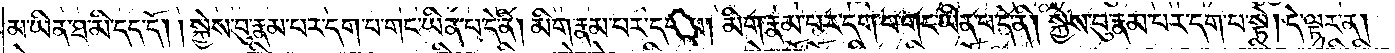མ་ཡིན་ཐ་མི་དད་དོ། །སྐྱེས་བུ་རྣམ་པར་དག་པ་གང་ཡིན་པ་དེ་ནི། མིག་རྣམ་པར་དག་པ། མིག་རྣམ་པར་དག་པ་གང་ཡིན་པ་དེ་ནི། སྐྱེས་བུ་རྣམ་པར་དག་པ་སྟེ། དེ་ལྟར་ན།
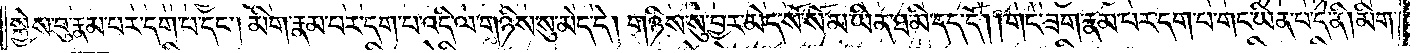སྐྱེས་བུ་རྣམ་པར་དག་པ་དང༌། མིག་རྣམ་པར་དག་པ་འདི་ལ་གཉིས་སུ་མེད་དེ། གཉིས་སུ་བྱར་མེད་སོ་སོ་མ་ཡིན་ཐ་མི་དད་དོ། །གང་ཟག་རྣམ་པར་དག་པ་གང་ཡིན་པ་དེ་ནི། མིག་
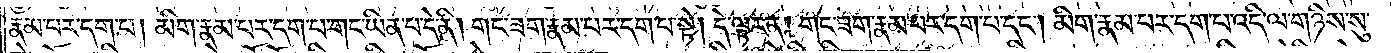རྣམ་པར་དག་པ། མིག་རྣམ་པར་དག་པ་གང་ཡིན་པ་དེ་ནི། གང་ཟག་རྣམ་པར་དག་པ་སྟེ། དེ་ལྟར་ན། གང་ཟག་རྣམ་པར་དག་པ་དང༌། མིག་རྣམ་པར་དག་པ་འདི་ལ་གཉིས་སུ་
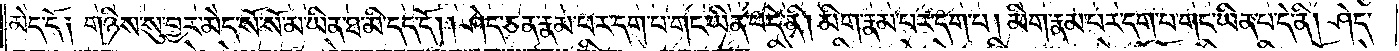མེད་དེ༑ གཉིས་སུ་བྱར་མེད་སོ་སོ་མ་ཡིན་ཐ་མི་དད་དོ། །ཤེད་ཅན་རྣམ་པར་དག་པ་གང་ཡིན་པ་དེ་ནི། མིག་རྣམ་པར་དག་པ། མིག་རྣམ་པར་དག་པ་གང་ཡིན་པ་དེ་ནི། ཤེད་
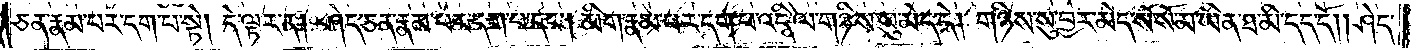ཅན་རྣམ་པར་དག་པ་སྟེ། དེ་ལྟར་ན། ཤེད་ཅན་རྣམ་པར་དག་པ་དང༌། མིག་རྣམ་པར་དག་པ་འདི་ལ་གཉིས་སུ་མེད་དེ། གཉིས་སུ་བྱར་མེད་སོ་སོ་མ་ཡིན་ཐ་མི་དད་དོ། །ཤེད་
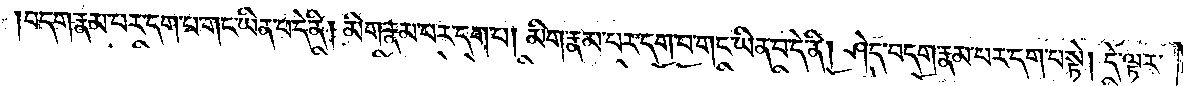བདག་རྣམ་པར་དག་པ་གང་ཡིན་པ་དེ་ནི། མིག་རྣམ་པར་དག་པ། མིག་རྣམ་པར་དག་པ་གང་ཡིན་པ་དེ་ནི། ཤེད་བདག་རྣམ་པར་དག་པ་སྟེ། དེ་ལྟར་
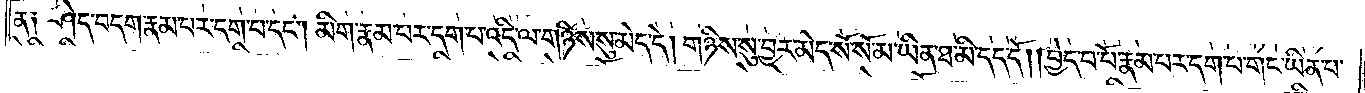ན༑ ཤེད་བདག་རྣམ་པར་དག་པ་དང༌། མིག་རྣམ་པར་དག་པ་འདི་ལ་གཉིས་སུ་མེད་དེ། གཉིས་སུ་བྱར་མེད་སོ་སོ་མ་ཡིན་ཐ་མི་དད་དོ། །བྱེད་བ་པོ་རྣམ་པར་དག་པ་གང་ཡིན་པ་
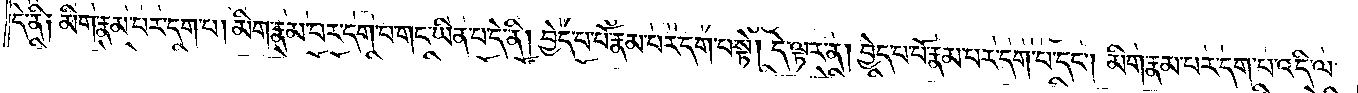དེ་ནི༑ མིག་རྣམ་པར་དག་པ། མིག་རྣམ་པར་དག་པ་གང་ཡིན་པ་དེ་ནི། བྱེད་པ་པོ་རྣམ་པར་དག་པ་སྟེ། དེ་ལྟར་ན། བྱེད་པ་པོ་རྣམ་པར་དག་པ་དང༌། མིག་རྣམ་པར་དག་པ་འདི་ལ་
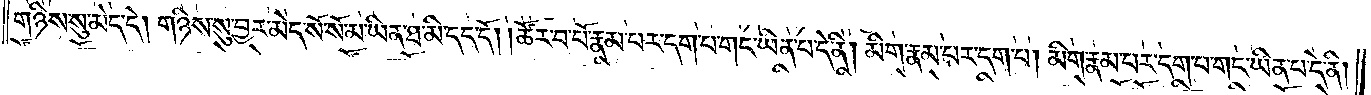གཉིས་སུ་མེད་དེ། གཉིས་སུ་བྱར་མེད་སོ་སོ་མ་ཡིན་ཐ་མི་དད་དོ། །ཚོར་བ་པོ་རྣམ་པར་དག་པ་གང་ཡིན་པ་དེ་ནི། མིག་རྣམ་པར་དག་པ། མིག་རྣམ་པར་དག་པ་གང་ཡིན་པ་དེ་ནི།
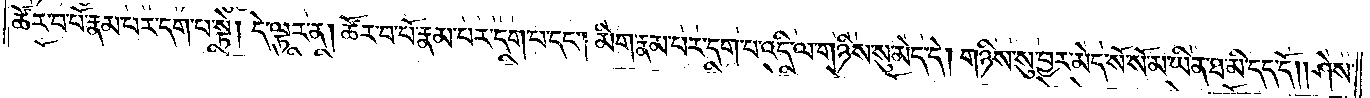ཚོར་བ་པོ་རྣམ་པར་དག་པ་སྟེ། དེ་ལྟར་ན། ཚོར་བ་པོ་རྣམ་པར་དག་པ་དང༌། མིག་རྣམ་པར་དག་པ་འདི་ལ་གཉིས་སུ་མེད་དེ། གཉིས་སུ་བྱར་མེད་སོ་སོ་མ་ཡིན་ཐ་མི་དད་དོ། །ཤེས་
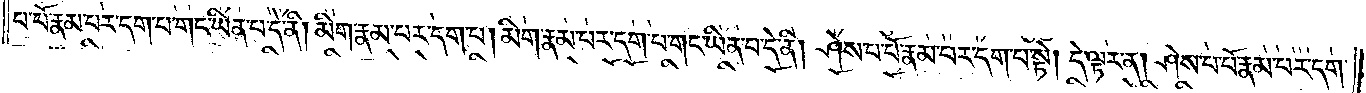པ་པོ་རྣམ་པར་དག་པ་གང་ཡིན་པ་དེ་ནི། མིག་རྣམ་པར་དག་པ། མིག་རྣམ་པར་དག་པ་གང་ཡིན་པ་དེ་ནི། ཤེས་པ་པོ་རྣམ་པར་དག་པ་སྟེ། དེ་ལྟར་ན། ཤེས་པ་པོ་རྣམ་པར་དག་
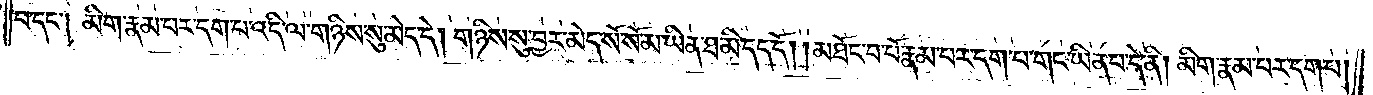པ་དང་༑ མིག་རྣམ་པར་དག་པ་འདི་ལ་གཉིས་སུ་མེད་དེ། གཉིས་སུ་བྱར་མེད་སོ་སོ་མ་ཡིན་ཐ་མི་དད་དོ། །མཐོང་བ་པོ་རྣམ་པར་དག་པ་གང་ཡིན་པ་དེ་ནི། མིག་རྣམ་པར་དག་པ།
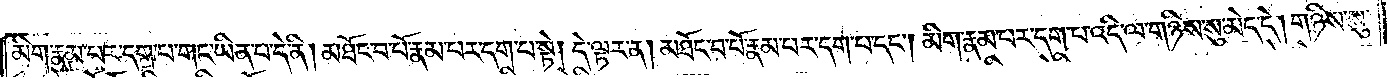མིག་རྣམ་པར་དག་པ་གང་ཡིན་པ་དེ་ནི། མཐོང་བ་པོ་རྣམ་པར་དག་པ་སྟེ། དེ་ལྟར་ན། མཐོང་བ་པོ་རྣམ་པར་དག་པ་དང༌། མིག་རྣམ་པར་དག་པ་འདི་ལ་གཉིས་སུ་མེད་དེ། གཉིས་སུ་
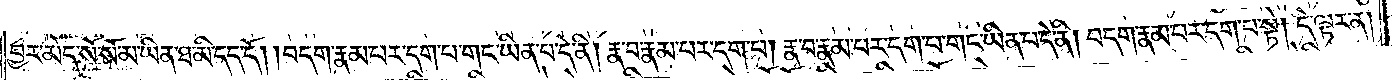བྱར་མེད་སོ་སོ་མ་ཡིན་ཐ་མི་དད་དོ། །བདག་རྣམ་པར་དག་པ་གང་ཡིན་པ་དེ་ནི། རྣ་བ་རྣམ་པར་དག་པ། རྣ་བ་རྣམ་པར་དག་པ་གང་ཡིན་པ་དེ་ནི། བདག་རྣམ་པར་དག་པ་སྟེ། དེ་ལྟར་ན།
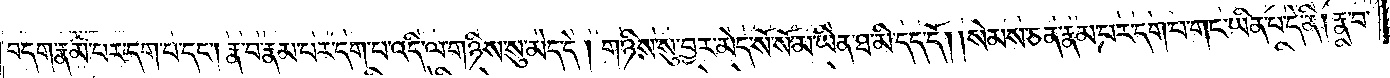བདག་རྣམ་པར་དག་པ་དང༌། རྣ་བ་རྣམ་པར་དག་པ་འདི་ལ་གཉིས་སུ་མེད་དེ། གཉིས་སུ་བྱར་མེད་སོ་སོ་མ་ཡིན་ཐ་མི་དད་དོ། །སེམས་ཅན་རྣམ་པར་དག་པ་གང་ཡིན་པ་དེ་ནི། རྣ་བ་
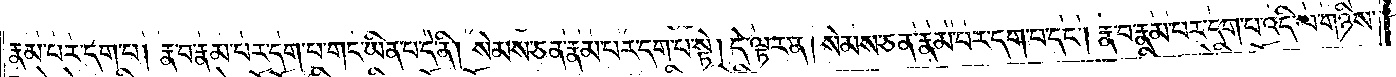རྣམ་པར་དག་པ། རྣ་བ་རྣམ་པར་དག་པ་གང་ཡིན་པ་དེ་ནི། སེམས་ཅན་རྣམ་པར་དག་པ་སྟེ། དེ་ལྟར་ན། སེམས་ཅན་རྣམ་པར་དག་པ་དང༌། རྣ་བ་རྣམ་པར་དག་པ་འདི་ལ་གཉིས་
